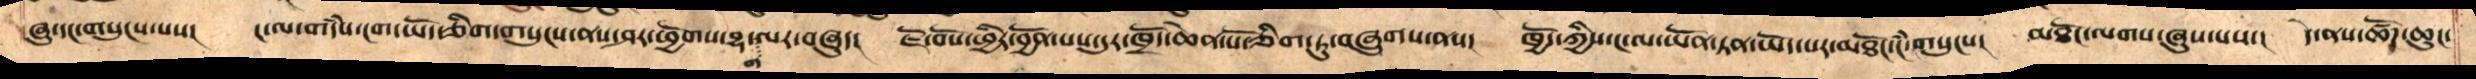ཞུ་དང་གསུངས་པས།   ང་ལ་གདཾས་ངག་ཡོད་ཅིག་གསུངས་ནས་ཤར་ཕྱོགས་བྷ་ག་ལར་བཞུད།   ཇོ་བོས་ཕྱིར་བྱོན་པས་དུར་ཁྲོད་ཆེན་པོ་ཅིག་ཏུ་བཞུགས་ནས།  ཁྱོད་ཀྱིས་ང་ལ་ཡོན་ཏན་ཡོད་པར་མཐོང་ངཾ་གསུངས།  མཐོང་ལགས་ཞུས་པས།  དེ་ནས་ཚོཌ་ཆུང་
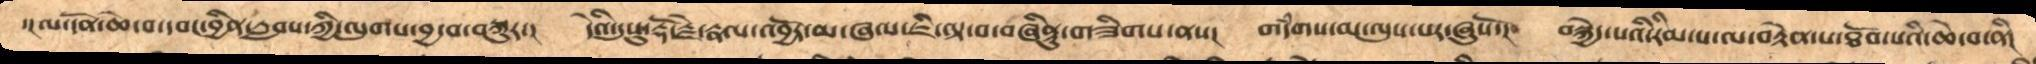་།ལ་དོན་ཆེ་བ་དབང་བྱིན་རླབས་ཀྱི་ལུགས་བྱ་བ་བསྐུར།   དེའི་དུསུ་རྡོ་རྗེ་རྣལ་འབྱོར་མ་ཞལ་ཇི་ལྟ་བ་བཞིནྟུ་གཟིགས་ནས།  གདཾགས་མ་ལུས་པར་ཞུསོ་།    བསྐྱེད་པའི་རིམ་པ་ལ་བརྟེན་པ་ཐོབ་པའི་ཆེ་བ་ནི།
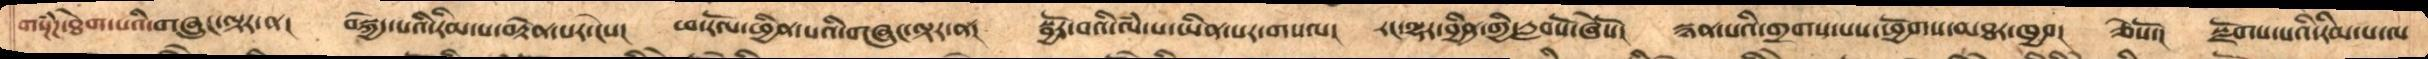གསྔཾཌ་ཐེག་པའི་གཞུང་ལྟར་ན།   བསྐྱེད་པའི་རིམ་པ་བརྟེན་པར་ངེས།  ཕ་རོལ་ཕྱིན་པའི་གཞུང་ལྟར་ན།   སྦྱོར་བའི་ལཾ་པ་ཡིན་པར་གསལ།  རང་ལྷར་བྱིན་གྱི་རླབསོ་ཞེསོ།  སྙན་པའི་གྲགས་པས་ཕྱོགས་མཐར་ཁྱབ།  ཅེསོ་།  སྫོགས་པའི་རིམ་པ་ལ
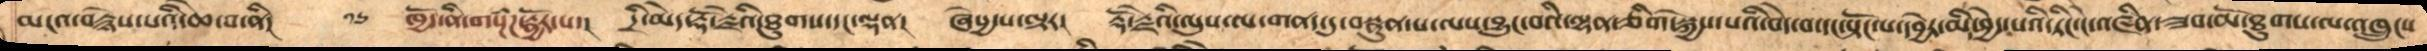མངའ་བརྙེས་པའི་ཆེ་བ་ནི། ༡༦ ཁྱོད་ནི་གསྔཾཌ་རྣྱོར་པ་།    དྲི་མེད་རྡོ་རྗེའི་ཐུགས་དང་ལྡན།  ཞེསྱ་པ་ལྟར།   རྡོ་རྗེའི་ལུས་ལ་གནད་དུ་བསྣུན་པ་ལས་བྱུང་བའི་ལྷན་ཅིག་སྐྱེས་པའི་བདེ་བ་དང་སྟོང་པ་དབྱེར་མི་ཕྱེད་པའི་ཏིང་ངེ་འཛིན་ཟབ་མོ་ཐུགས་ལ་འཁྲུངས
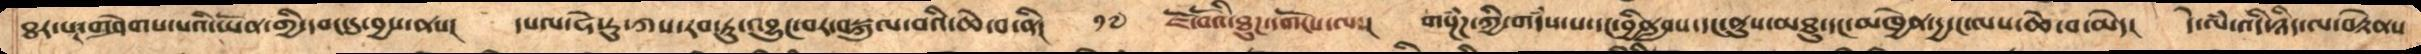ཐར་པར་གཤེགས་པའི་ཡོན་གྱི་དབང་དུ་བྱས་ནས།    དཔལ་ཧེ་རུ་ཀས་རབ་ཏུ་འབྱུང་བར་བསྐུལ་བའི་ཆེ་བ་ནི།  ༡༧  ཇོ་བོའི་ཐུཌ་དགོངས་ལ་།  གསྔཾཌ་ཀྱི་གདཾས་པ་དང་བྱིནླབས་དང་ནུས་མཐུ་དང་མཁྱེན་དྱ་ང་ལས་ཆེ་བ་མེད།   དེ་ལཾ་འདི་ཉིད་ལ་བརྟེནས
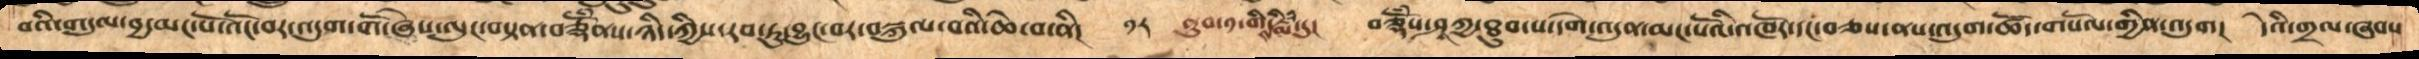བའི་གདུལ་བྱ་མང་པོ་འོང་བར་འདུག་གོ་ཞེས་ལུང་བསྟན་བཅྡོཾནས་ཉིད་ཀྱིས་རབ་ཏུ་བྱུང་བར་བསྐུལ་བའི་ཆེ་བ་ནི། ༡༨  ནུབ་༡་གིས་་རྨིཾ་དུ།  བཅྡོཾས་ཤཱཀྱ་ཐུབ་པ་དགེ་འདུན་མང་པོའི་འཁོར་དང་བཅས་ནས་འདུག་ཚོད་གསོལ་གྱིན་འདུག   དེའི་གྲལ་ཞབས
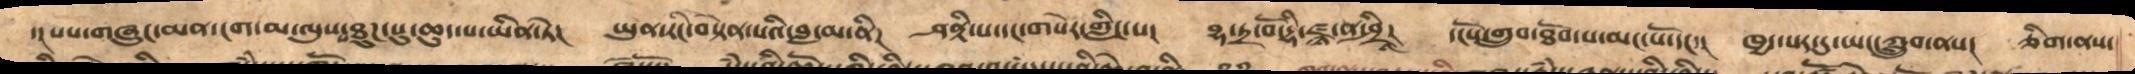་།པས་གཞུང་མན་ངག་མ་ལུས་པ་ཐུཌ་སུ་ཆུད་པ་ཡིན་ཏེ།  ཡུན་རིང་བསྟེན་པའི་བླ་མ་ནི།  ཤནྟི་པ་དང་གསེར་གླིང་པ།  བྷ་དྲ་བོ་དྷི་ཛྙཱ་ན་ཤྲཱཱི།  དངོས་གྲུབ་ཐོབ་པ་མང་པོ་དང་།   ཁྱད་པར་དུ་ཡང་ཀླུབ་ནས།  ཅིག་ནས་
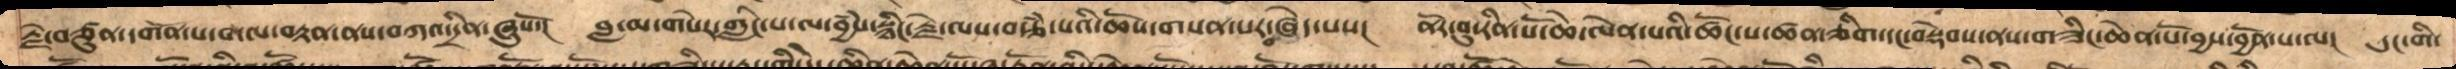རྗེ་བཙུན་དགོན་པ་གལ་བརྟན་ནས་བཀའ་དྲིན་ཞུསོ་།   བླ་མ་གསེར་གླིང་པ་ལ་བྱཾས་སྙིང་རྗེ་ལས་བརྩཾ་པའི་ཆོས་གསན་པར་བཞེད་པས།   ནོར་བུ་རིན་པོ་ཆེ་ལེན་པའི་ཚོང་པ་ཚན་ཅིག་དང་བསྡེབས་ནས་གཟིང་ཆེན་པོ་བྱས་བྱོན་པ་ལ།  དུང་གི་
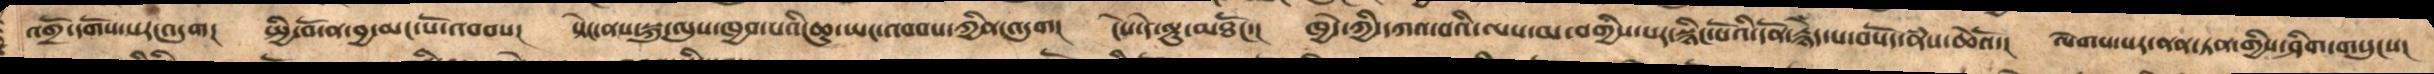འགྲོ་དགོས་པར་འདུག   སྤྱི་བོ་ན་བྱ་མང་པོ་འབབས།   སྟེང་ནས་སྐུ་ལུས་ཁྱབ་པའི་ཆུ་ཡང་འབབས་ཀྱིན་འདུག   ངེས་དེ་ལྟུ་མཐོང་།   ཁྱེད་ཀྱི་དཀའ་བའི་ལས་མ་བགྱིས་པར་སྙིང་པོའི་དོན་རྙེད་པ་བསོད་ནཾས་ཆེའོ་།    ལེགས་པར་ནན་ཏན་གྱིས་ཤིག་གསུངས།
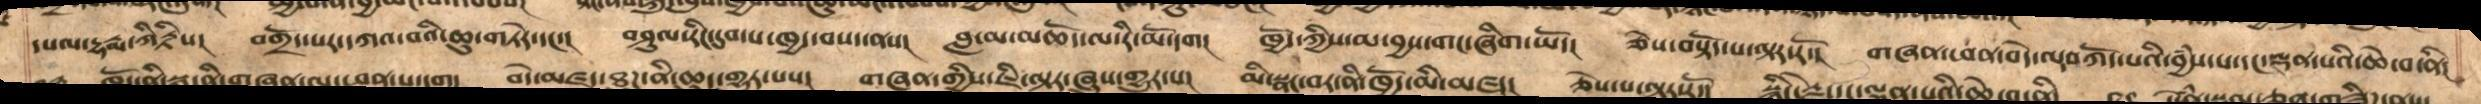དཔལ་དྷརྨ་ཀཱིརྟིས། བགྲོད་པར་དཀའ་བའི་ཆུ་གཏེར་དང་། བཤུལ་རིང་དུབ་པ་ཁྱད་བསད་ནས།  བླ་མ་མཆོད་ལ་རི་མོ་དག། ཁྱོད་ཀྱིས་མ་བྱས་གང་ཞིག་ཡོད། ཅེས་བསྟོད་པ་ལྟར་རོ།  གཞན་ཕན་བདེ་ལ་བཀོད་པའི་བྱཾས་པ་དང་ལྡན་པའི་ཆེ་བ་ནི།
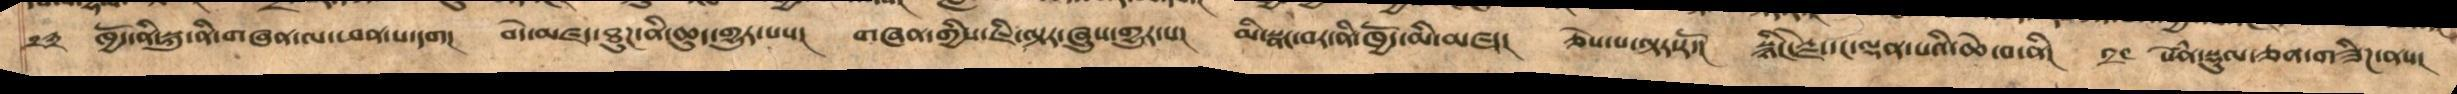༢༣ ཁྱོད་ནི་སྐུ་ནི་གཞན་ལ་ཕན་པ་དག།   བདེ་མཛད་ཐུཌ་ནི་ཆུང་གྱུར་ས།   གཞན་གྱིས་ཇི་ལྟར་ཞུས་གྱུར་པ།   མི་སྣང་བར་ནི་ཁྱོད་མི་མཛད།  ཅེས་པ་ལྟར་རོ།   སྙིང་རྗེ་དང་ལྡན་པའི་ཆེ་བ་ནི། ༢༤  སེཾན་སྡུལ་ཅན་གཟིཌ་ནས།
